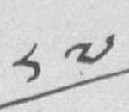༨༧
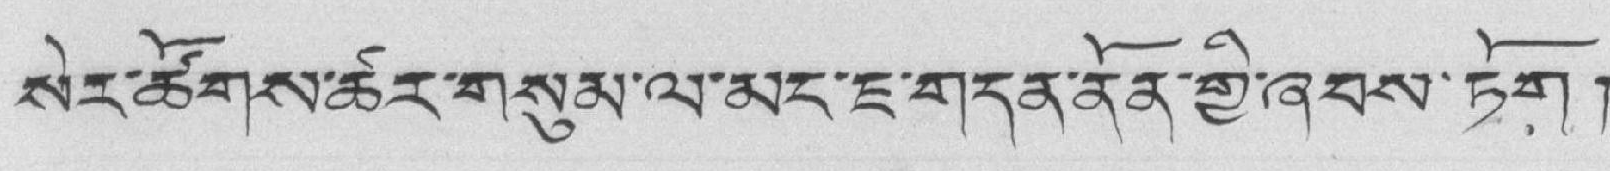སེར་ཚོགས་ཚེར་གསུམ་ལ་མང་ཇ་གདན་ནོན་གྱི་ཞབས་ཏོག །
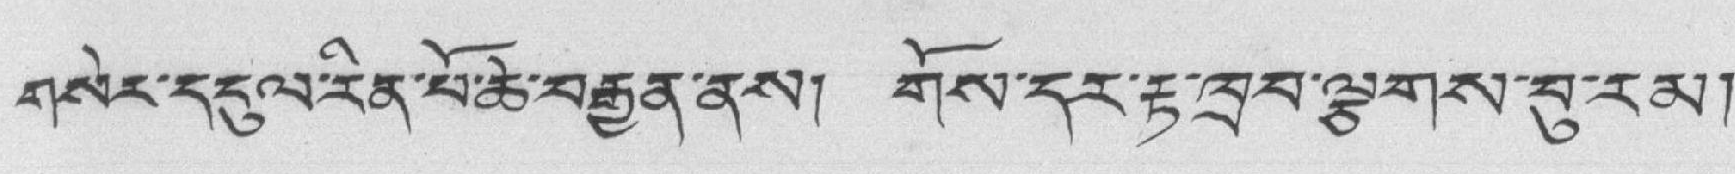གསེར་དངུལ་རིན་པོ་ཆེ་བརྒྱན་ནས། གོས་དར་རྟ་ཁྲབ་ལྕགས་བུ་རམ།
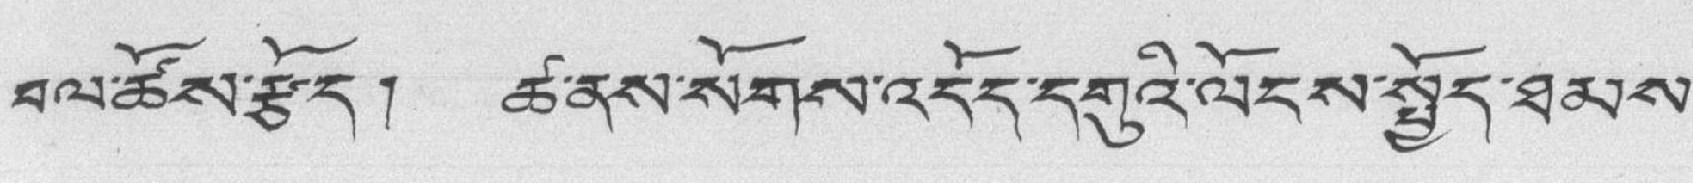བལ་ཚོས་རྩོ་ད། ཚ་ནས་སོགས་འདོད་དགུའི་ལོངས་སྤྱོད་ཐམས་
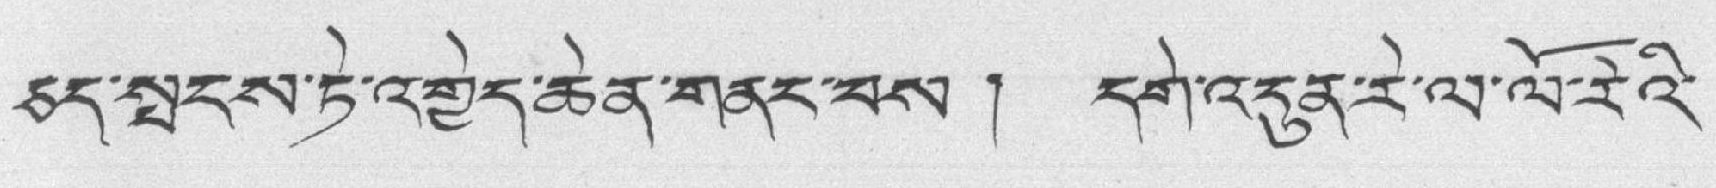ཅད་སྤངས་ཏེ་འགྱེད་ཆེན་གནང་པས ། དགེ་འདུན་རེ་ལ་ལོ་རེའི་
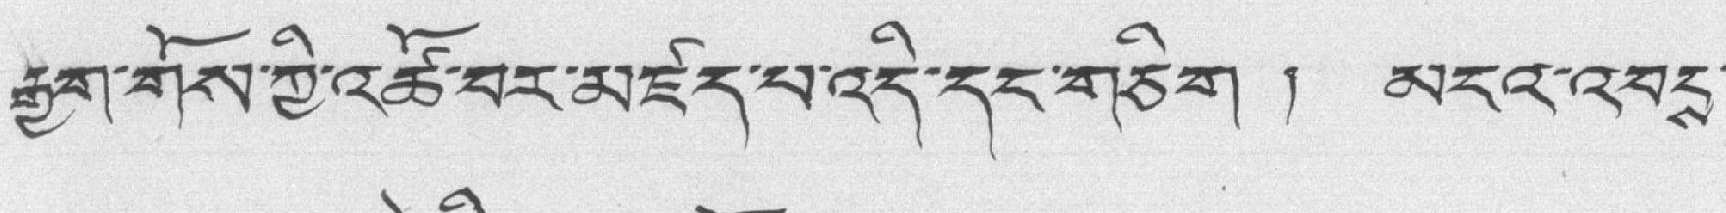རྒྱག་གོས་ཀྱི་འཚོ་བར་མཛད་པ་འདི་དང་གཅིག ། མངའ་འབངས་
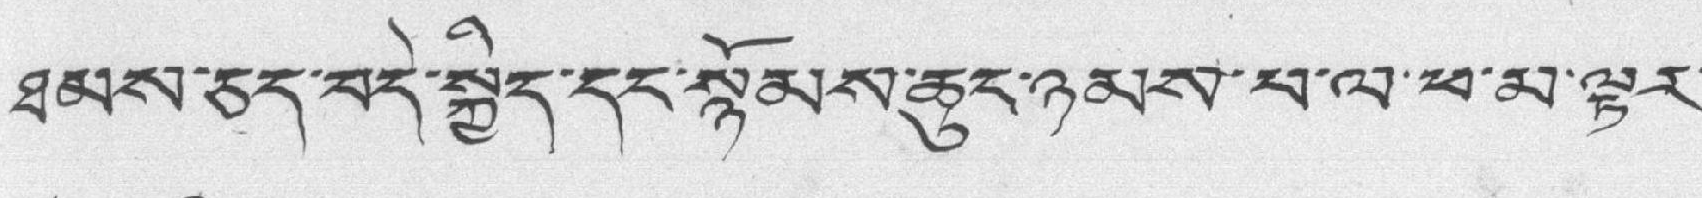ཐམས་ཅུད་བདེ་སྐྱིད་དང་སྙོམས་ཆུང་ཉམས་པ་ལ་ཕ་མ་ལྟར་
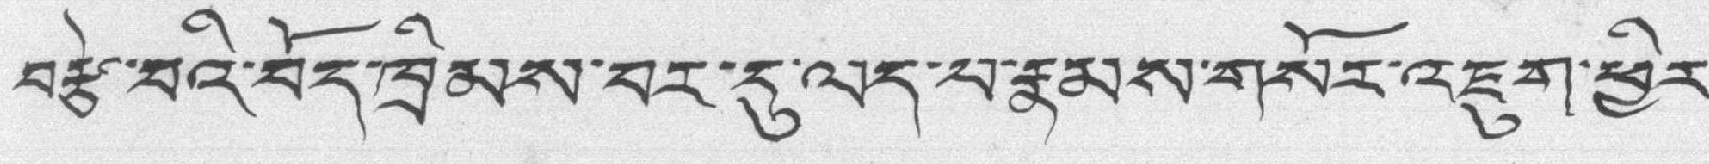བརྩེ་བའི་བོད་ཁྲིམས་བར་དུ་ལད་པ་རྣམས་གསོར་འཇུག་ཕྱིར་
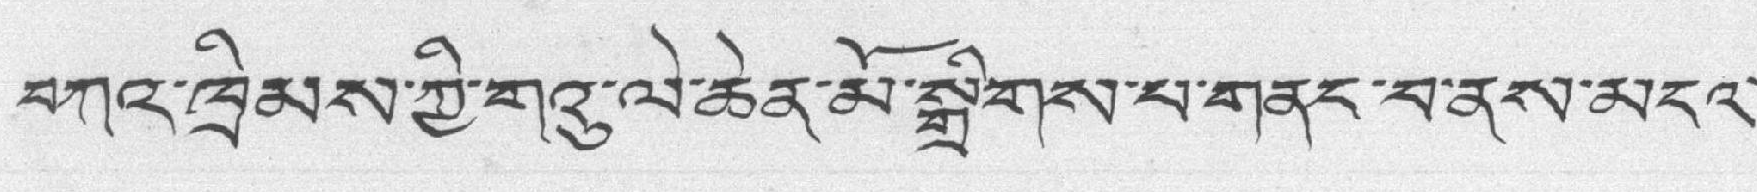བཀའ་ཁྲིམས་ཀྱི་གའུ་ལེ་ཆེན་མོ་སྒྲིགས་པ་གནང་བ་ནས་མངའ་
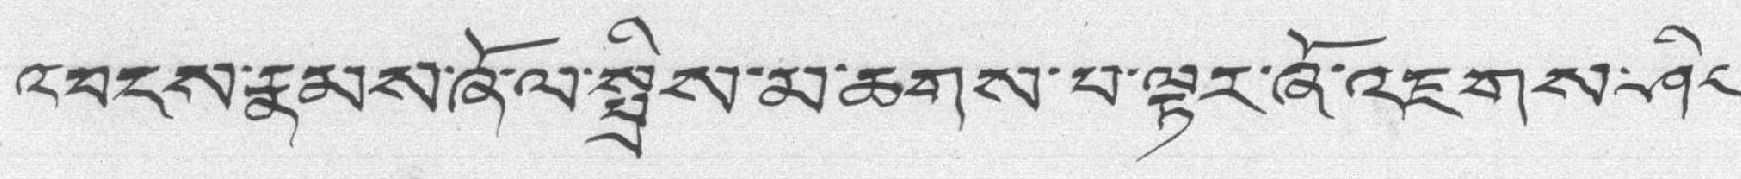འབངས་རྣམས་ཞོལ་སྤྲིས་མ་ཆགས་པ་ལྟར་ཞོ་འཇགས་ཤིང་
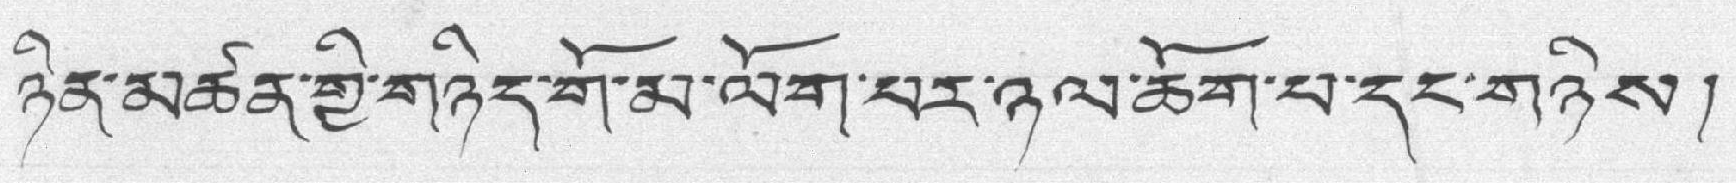ཉིན་མཚན་གྱི་གཉིད་གོ་མ་ལོག་པར་ཉལ་ཆོག་པ་དང་གཉིས།
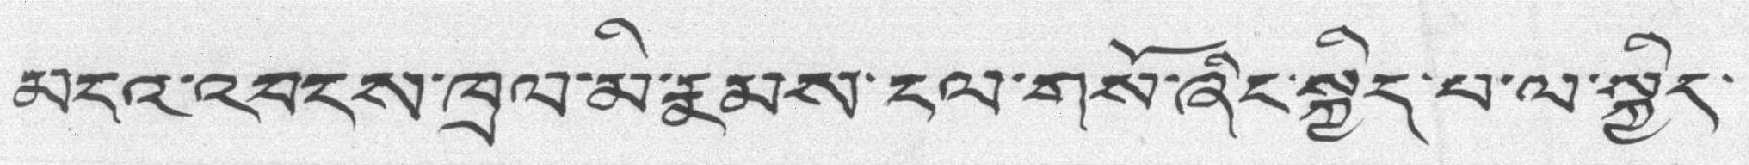མངའ་འབངས་ཁྲལ་མི་རྣམས་ངལ་གསོ་ཞིང་སྐྱིད་པ་ལ་སྐྱིད་
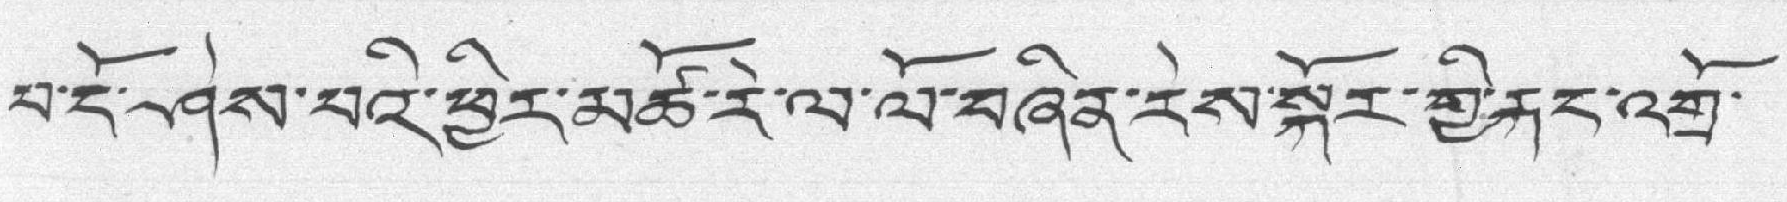པ་ངོ་ཤེས་པའི་ཕྱིར་མཚོ་རེ་ལ་ལོ་བཞིན་རེས་སྐོར་གྱི་རྐང་འགྲོ་
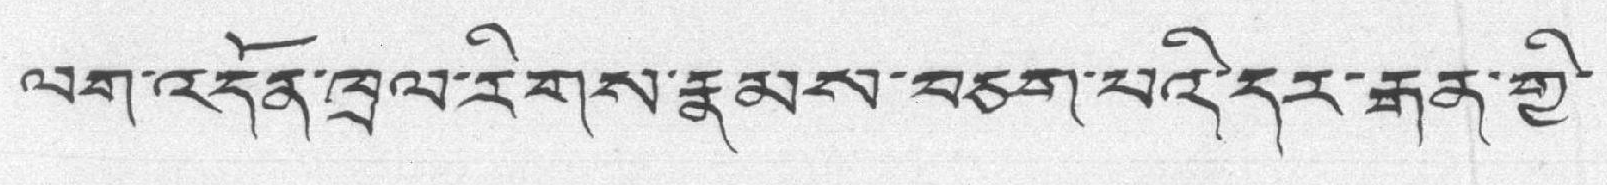ལག་འདོན་ཁྲལ་རིགས་རྣམས་བཅག་པའི་དར་རྒན་གྱི་
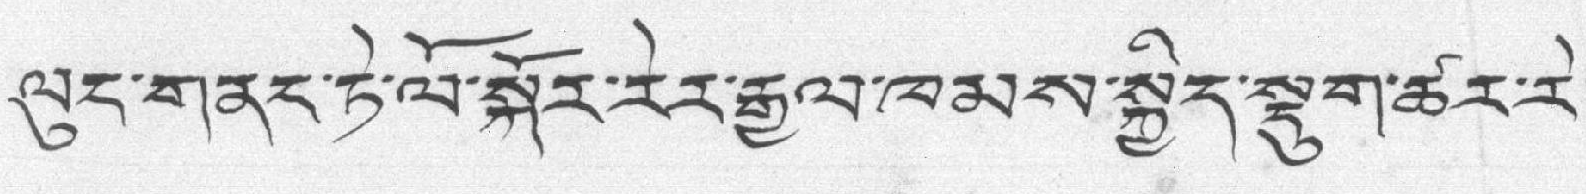ལུད་གནང་ཏེ་ལོ་སྐོར་རེར་རྒྱལ་ཁམས་སྐྱིད་སྡུག་ཚར་རེ་
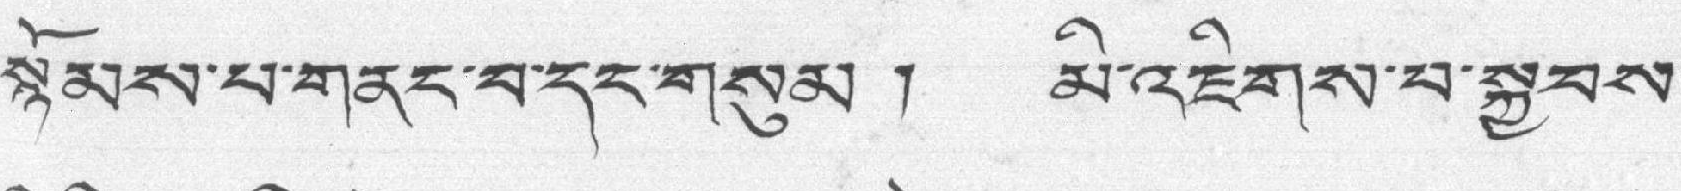སྙོམས་པ་གནང་བ་དང་གསུམ ། མི་འཇིགས་པ་སྐྱབས་
